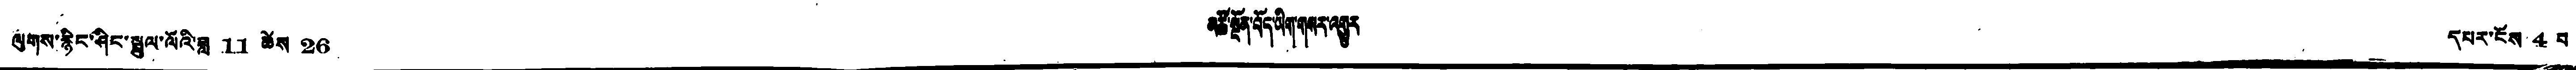ལུགས་རྙིང་ཤིང་སྦྲུལ་ལོའི་ཟླ 11 ཚེས 26 མཚོ་སྔོན་བོད་ཡིག་གསར་འགྱུར དཔར་ངོས 4 བ
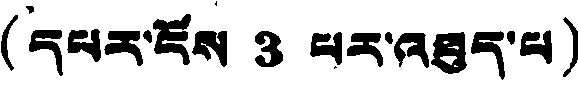(དཔར་ངོས 3 པར་འཐུད་པ)
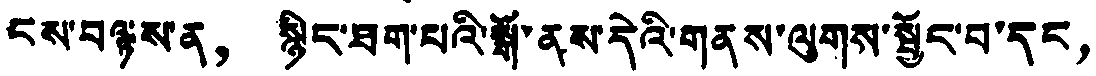ངས་བལྟས་ན， སྙིང་ཐག་པའི་སྒོ་ནས་དེའི་གནས་ལུགས་སྦྱོང་བ་དང，
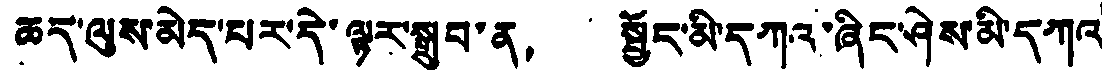ཆད་ལུས་མེད་པར་དེ་ལྟར་སྒྲུབ་ན， སྦྱོང་མི་དཀའ་ཞིང་ཤེས་མི་དཀའ་
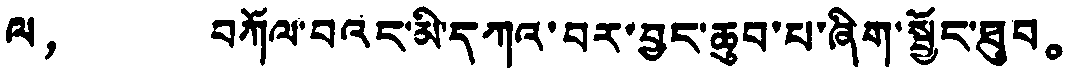ལ， བཀོལ་བའང་མི་དཀའ་བར་བྱང་ཆུབ་པ་ཞིག་སྦྱོང་ཐུབ。
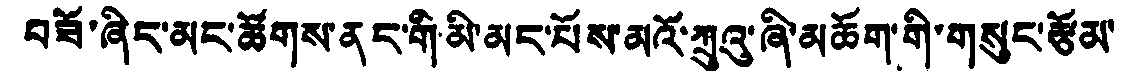བཟོ་ཞིང་མང་ཚོགས་ནང་གི་མི་མང་པོས་མའོ་ཀྲུའུ་ཞི་མཆོག་གི་གསུང་རྩོམ་
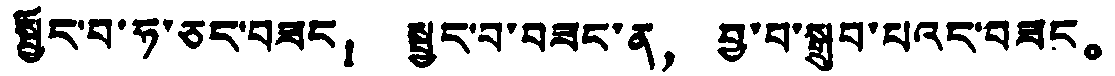སྦྱོང་བ་ཧ་ཅང་བཟང： སྦྱང་བ་བཟང་ན， བྱ་བ་སྒྲུབ་པའང་བཟང。
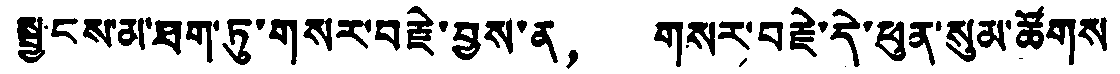སྦྱངས་མ་ཐག་ཏུ་གསར་བརྗེ་བྱས་ན， གསར་བརྗེ་དེ་ཕུན་སུམ་ཚོགས
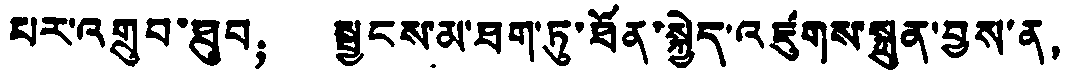པར་འགྲུབ་ཐུབ； སྦྱངས་མ་ཐག་ཏུ་ཐོན་སྐྱེད་འཛུགས་སྐྲུན་བྱས་ན，
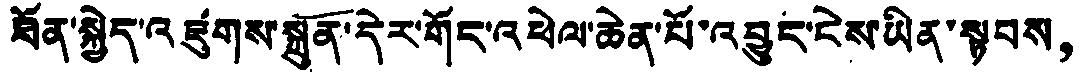ཐོན་སྐྱེད་འཛུགས་སྐྲུན་དེར་གོང་འཕེལ་ཆེན་པོ་འབྱུང་ངེས་ཡིན་སྟབས，
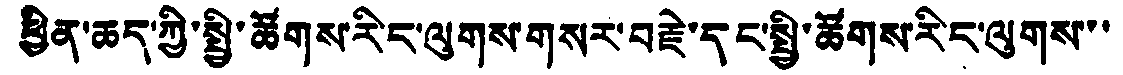ཕྱིན་ཆད་ཀྱི་སྤྱི་ཚོགས་རིང་ལུགས་གསར་བརྗེ་དང་སྤྱི་ཚོགས་རིང་ལུགས་་་
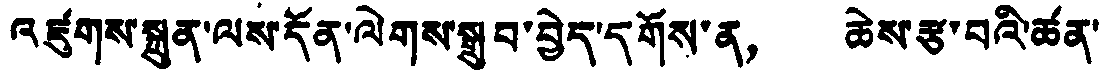འཛུགས་སྐྲུན་ལས་དོན་ལེགས་སྒྲུབ་བྱེད་དགོས་ན， ཆེས་རྩ་བའི་ཚན་
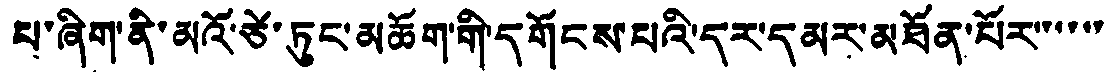པ་ཞིག་ནི་མའོ་ཙེ་ཏུང་མཆོག་གི་དགོངས་པའི་དར་དམར་མཐོན་པོར་་་་་་
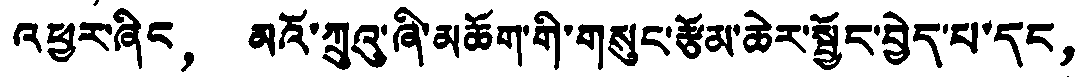འཕྱར་ཞིང， མའོ་ཀྲུའུ་ཞི་མཆོག་གི་གསུང་རྩོམ་ཆེར་སྦྱོང་བྱེད་པ་དང，
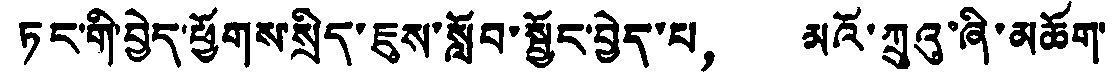ཏང་གི་བྱེད་ཕྱོགས་སྲིད་ཇུས་སློབ་སྤྱོད་བྱེད་པ， མའོ་ཀྲུའུ་ཞི་མཆོག་
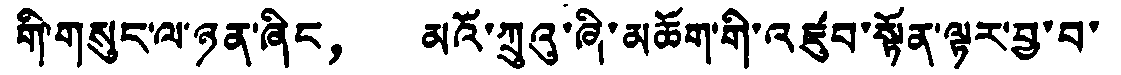གི་གསུང་ལ་ཉན་ཞིང， མའོ་ཀྲུའུ་ཞི་མཆོག་གི་འཛུབ་སྟོན་ལྟར་བྱ་བ་
